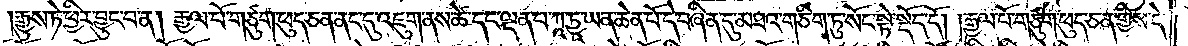རྒྱུས་ཏེ་ཕྱིར་བྱུང་བ་ན། རྒྱལ་པོ་གཙུག་ཕུད་ཅན་ནང་དུ་འཇུག་ནས་ཚེ་དང་ལྡན་པ་ཀཱ་ཏྱཱ་ཡ་ན་ཆེན་པོ་དེ་བཞིན་དུ་མཐའ་གཅིག་ཏུ་སོང་སྟེ་སྡོད་དོ། །རྒྱལ་པོ་གཙུག་ཕུད་ཅན་གྱིས་དེ་
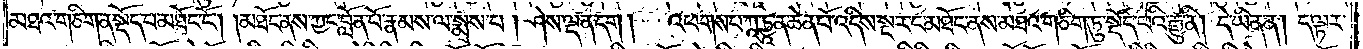མཐའ་གཅིག་ན་སྡོད་པ་མཐོང་ངོ༌། །མཐོང་ནས་ཀྱང་བློན་པོ་རྣམས་ལ་སྨྲས་པ། ཤེས་ལྡན་དག །འཕགས་པ་ཀཱ་ཏྱཱ་ན་ཆེན་པོ་འདིས་སྔར་ང་མཐོང་ནས་མཐའ་གཅིག་ཏུ་སྡོད་པའི་རྒྱུ་ནི། དེ་ཡིན་ན། ད་ལྟར་
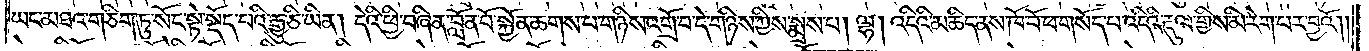ཡང་མཐའ་གཅིག་ཏུ་སོང་སྟེ་སྡོད་པའི་རྒྱུ་ཅི་ཡིན། དེའི་ཕྱི་བཞིན་བློན་པོ་སྐྱོན་ཆགས་པ་གཉིས་འགྲོ་བ་དེ་གཉིས་ཀྱིས་སྨྲས་པ། ལྷ། འདིའི་མཆིད་ནས་ཁོ་བོ་ཕ་གསོད་པ་འདིའི་རྡུལ་གྱིས་མི་རེག་པར་བྱའོ༎
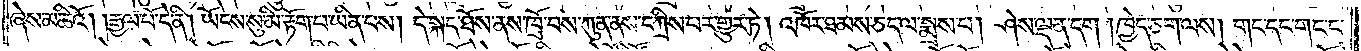ཞེས་མཆིའོ། །རྒྱལ་པོ་དེ་ནི། ཡོངས་སུ་མི་རྟོག་པ་ཡིན་པས། དེ་སྐད་ཐོས་ནས་ཁྲོ་བས་ཀུན་ནས་དཀྲིས་པར་གྱུར་ཏེ། འཁོར་ཐམས་ཅད་ལ་སྨྲས་པ། ཤེས་ལྡན་དག །ཁྱེད་ཅག་ལས། གང་དང་གང་ང་
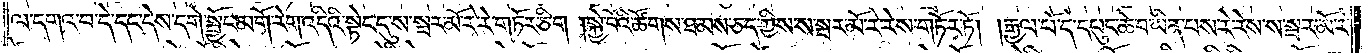ལ་དགའ་བ་དེ་དང་དེས་དགེ་སྦྱོང་མགོ་རེག་འདིའི་སྟེང་དུ་ས་སྦར་མོ་རེ་རེ་གཏོར་ཅིག །སྐྱེ་བོའི་ཚོགས་ཐམས་ཅད་ཀྱིས་ས་སྦར་མོ་རེ་རེས་གཏོར་ཏོ། །རྒྱལ་པོ་དེ་དཔུང་ཆེ་བ་ཡིན་པས་རེ་རེས་ས་སྦར་མོ་རེ་
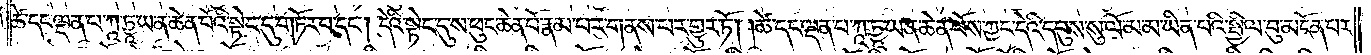ཚེ་དང་ལྡན་པ་ཀཱ་ཏྱཱ་ཡ་ན་ཆེན་པོའི་སྟེང་དུ་གཏོར་བ་དང༌། དེའི་སྟེང་དུ་ས་ཕུང་ཆེན་པོ་རྣམ་པར་གནས་པར་གྱུར་ཏོ། །ཚེ་དང་ལྡན་པ་ཀཱ་ཏྱཱ་ཡ་ན་ཆེན་པོས་ཀྱང་དེའི་དབུས་སུ་ལོ་མ་མ་ཡིན་པའི་སྤྱིལ་བུ་མངོན་པར་
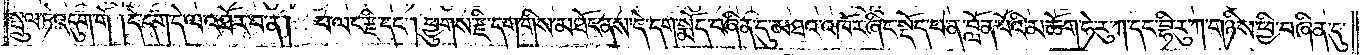སྤྲུལ་ཏེ་འདུག་གོ །དེ་དག་དེ་ལ་འཐོར་བ་ན། བ་ལང་རྫི་དང༌། ཕྱུགས་རྫི་དག་གིས་མཐོང་ནས་དེ་དག་སྨོད་བཞིན་དུ་མཐའ་འཁོར་ཞིང་སྡོད་པ་ན་བློན་པོའི་མཆོག་ཧེ་རུ་ཀ་དང་བྷི་རུ་ཀ་གཉིས་ཕྱི་བཞིན་དུ་
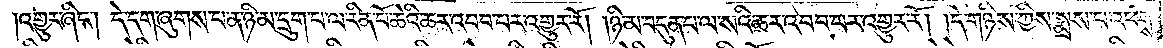།འགྱུར་ཞིང༌། དེ་དག་ཞུགས་པ་ན་ཉི་མ་དྲུག་པ་ལ་རིན་པོ་ཆེའི་ཆར་འབབ་པར་འགྱུར་རོ། །ཉི་མ་བདུན་པ་ལ་སའི་ཆར་འབབ་པར་འགྱུར་རོ། །དེ་གཉིས་ཀྱིས་སྨྲས་པ་འཕགས་
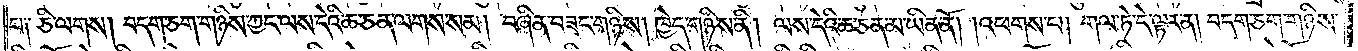པ༑ ཅི་ལགས། བདག་ཅག་གཉིས་ཀྱང་ལས་དེའི་ཆ་ཅན་ལགས་སམ། བཞིན་བཟང་གཉིས། ཁྱེད་གཉིས་ནི། ལས་དེའི་ཆ་ཅན་མ་ཡིན་ནོ། །འཕགས་པ། གལ་ཏེ་དེ་ལྟར་ན། བདག་ཅག་གཉིས་
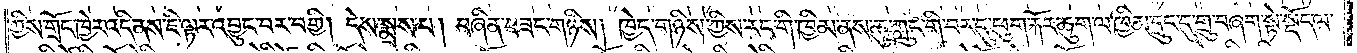ཀྱིས་གྲོང་ཁྱེར་འདི་ནས་ཇི་ལྟར་འབྱུང་བར་བགྱི། དེས་སྨྲས་པ། བཞིན་བཟང་གཉིས། ཁྱེད་གཉིས་ཀྱིས་རང་གི་ཁྱིམ་ནས་ཆུ་ཀླུང་གི་བར་དུ་ཕུག་རྐོར་ཆུག་ལ་ཁྱིམ་དྲུང་དུ་གྲུ་བཞག་སྟེ་སྡོད་ལ་
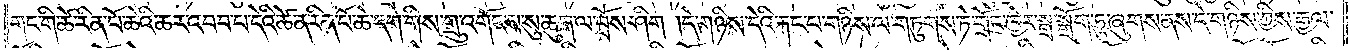གང་གི་ཚེ་རིན་པོ་ཆེའི་ཆར་འབབ་པ་དེའི་ཚེ་ན་རིན་པོ་ཆེ་དག་གིས་གྲུ་འགོངས་སུ་ཆུག་ལ་བྲོས་ཤིག །དེ་གཉིས་དེའི་རྐང་པ་གཉིས་ལ་གཏུགས་ཏེ་གྲོང་ཁྱེར་སྒྲ་སྒྲོག་ཏུ་ཞུགས་ནས་དེ་གཉིས་ཀྱིས་རྒྱལ་
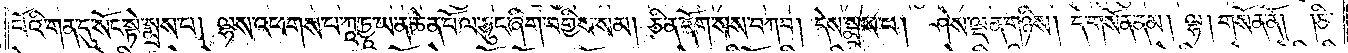པོའི་གན་དུ་སོང་སྟེ་སྨྲས་པ། ལྷས་འཕགས་པ་ཀཱ་ཏྱཱ་ཡ་ན་ཆེན་པོ་ལ་ཅུང་ཞིག་བགྱིས་སམ། ཅི་ན་དོག་སས་བཀབ། དེས་སྨྲས་པ། ཤེས་ལྡན་གཉིས། དེ་གསོན་ནམ། ལྷ། གསོན་ནོ། །ཅི་
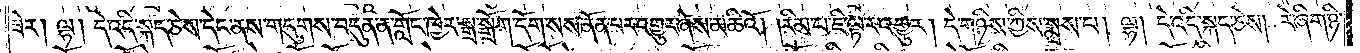ཟེར། ལྷ། དེ་འདི་སྐད་ཅེས་དེང་ནས་གདུགས་བདུན་ན་གློང་ཁྱེར་སྒྲ་སྒྲོག་དོག་སས་ནོན་པར་འགྱུར་ཞེས་མཆིའོ། །རིམ་པ་ཇི་ལྟར་འགྱུར། དེ་གཉིས་ཀྱིས་སྨྲས་པ། ལྷ། དེ་འདི་སྐད་ཅེས། རེ་ཞིག་ཉེ་
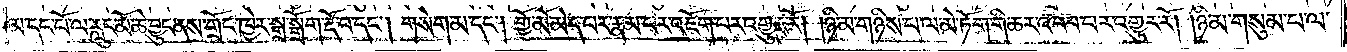མ་དང་པོ་ལ་རླུང་མོ་ཆེ་བྱུང་ནས་གྲོང་ཁྱེར་སྒྲ་སྒྲོག་རྡོ་བ་དང༌། གསེག་མ་དང༌། གྱོ་མོ་མེད་པར་རྣམ་པར་འཇོག་པར་འགྱུར་རོ། །ཉི་མ་གཉིས་པ་ལ་མེ་ཏོག་གི་ཆར་འབབ་པར་འགྱུར་རོ། །ཉི་མ་གསུམ་པ་ལ་
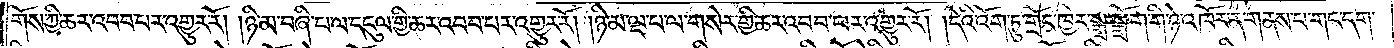གོས་ཀྱི་ཆར་འབབ་པར་འགྱུར་རོ། །ཉི་མ་བཞི་པ་ལ་དངུལ་གྱི་ཆར་འབབ་པར་འགྱུར་རོ། །ཉི་མ་ལྔ་པ་ལ་གསེར་གྱི་ཆར་འབབ་པར་འགྱུར་རོ། །དེའི་འོག་ཏུ་གྲོང་ཁྱེར་སྒྲ་སྒྲོག་གི་ཉེ་འཁོར་ན་གནས་པ་གང་དག་
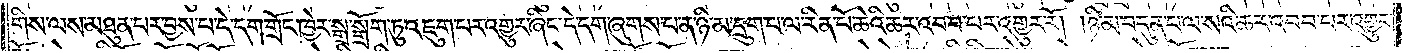གིས་ལས་མཐུན་པར་བྱས་པ་དེ་དག་གྲོང་ཁྱེར་སྒྲ་སྒྲོག་ཏུ་འཇུག་པར་འགྱུར་ཞིང་དེ་དག་ཞུགས་པ་ན་ཉི་མ་དྲུག་པ་ལ་རིན་པོ་ཆེའི་ཆར་འབབ་པར་འགྱུར་རོ། །ཉི་མ་བདུན་པ་ལ་སའི་ཆར་འབབ་པར་འགྱུར་
